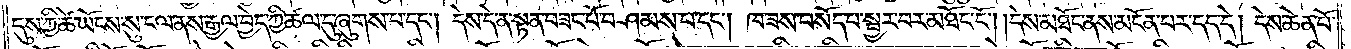དུས་ཀྱི་ཚེ་ཡོངས་སུ་ངལ་ནས་རྒྱལ་བྱེད་ཀྱི་ཚལ་དུ་ཞུགས་པ་དང༌། དེས་དེ་ན་སྟན་བཟང་པོ་བཤམས་པ་དང༌། ཁ་ཟས་བསོད་པ་སྦྱར་བར་མཐོང་ངོ༌། །དེས་མཐོང་ནས་མངོན་པར་དད་དེ། དེས་ཆེན་པོ་
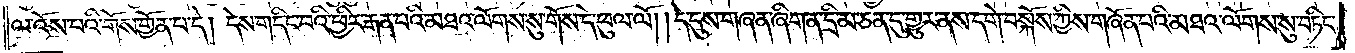ལ་འོས་པའི་གོས་གྱོན་པ་དེ། དེས་གདིང་བའི་ཕྱིར་རྒན་པའི་མཐའ་ལོགས་སུ་གོས་དེ་ཕུལ་ལོ། །དེ་དུས་གཞན་ཞིག་ན་དྲི་མ་ཅན་དུ་གྱུར་ནས་དགེ་བསྐོས་ཀྱིས་གཞོན་པའི་མཐའ་ལོགས་སུ་བཏིང་
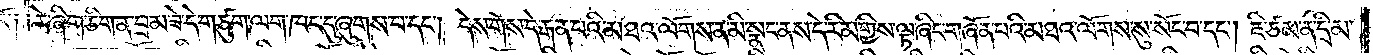ངོ༑ ༑རེ་ཞིག་ཅིག་ན་བྲམ་ཟེ་དེ་གཙུག་ལག་ཁང་དུ་ཞུགས་པ་དང༌། དེས་གོས་དེ་རྒན་པའི་མཐའ་ལོགས་ན་མི་སྣང་ནས་དེ་རིམ་གྱིས་ལྟ་ཞིང་གཞོན་པའི་མཐའ་ལོགས་སུ་སོང་བ་དང༌། ཇི་ཙམ་ན་དྲི་མ་
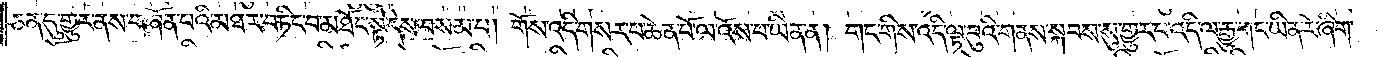ཅན་དུ་གྱུར་ནས་གཞོན་པའི་མཐར་བཏིང་བ་མཐོང་སྟེ་དེས་བསམ་པ། གོས་འདི་གསར་པ་ཆེན་པོ་ལ་འོས་པ་ཡིན་ན། གང་གིས་འདི་ལྟ་བུའི་གནས་སྐབས་སུ་གྱུར་པ་འདི་ལ་རྒྱུ་གང་ཡིན་རེ་ཞིག་
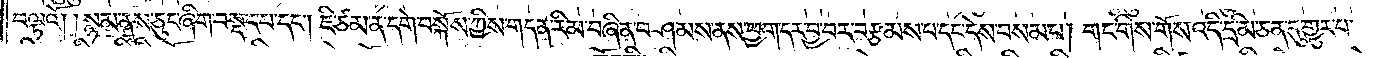བལྟའོ། །སྙམ་ནས་ཅུང་ཞིག་བསྡད་པ་དང༌། ཇི་ཙམ་ན་དགེ་བསྐོས་ཀྱིས་གདན་རིམ་བཞིན་བཤམས་ནས་ཕྱག་དར་བྱ་བར་བརྩམས་པ་དང་དེས་བསམ་པ། གང་གིས་གོས་འདི་དྲི་མ་ཅན་དུ་གྱུར་པ་
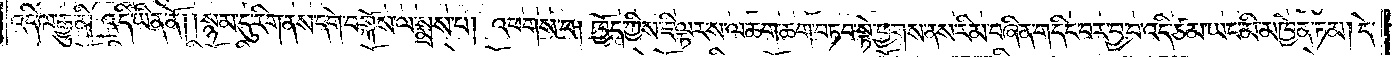འདི་ལ་རྒྱུ་ནི། འདི་ཡིན་ནོ། །སྙམ་དུ་རིག་ནས་དགེ་བསྐོས་ལ་སྨྲས་པ། འཕགས་པ། ཁྱོད་ཀྱིས་ཇི་ལྟར་ས་ལ་ཆག་ཆག་བཏབ་སྟེ་ཕྱགས་ནས་རིམ་བཞིན་གདིང་བར་བྱ་བ་འདི་ཙམ་ཡང་མི་མཁྱེན་ཏམ། དེ་
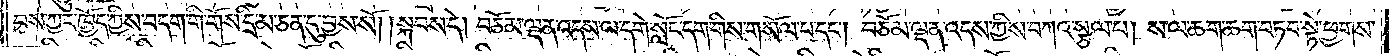བས་ཀྱང་ཁྱོད་ཀྱིས་བདག་གི་གོས་དྲི་མ་ཅན་དུ་བྱས་སོ། །སྐབས་དེ། བཅོམ་ལྡན་འདས་ལ་དགེ་སློང་དག་གིས་གསོལ་པ་དང༌། བཅོམ་ལྡན་འདས་ཀྱིས་བཀའ་སྩལ་པ། ས་ལ་ཆག་ཆག་བཏབ་སྟེ་ཕྱགས་
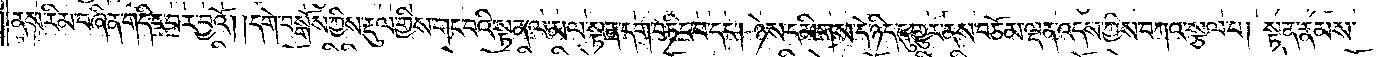ནས་རིམ་བཞིན་གདིང་བར་བྱའོ། །དགེ་བསྒོས་ཀྱིས་རྡུལ་གྱིས་གང་བའི་སྟན་ལ་མལ་སྟན་དག་བཏིང་བ་དང༌། ཉེས་དམིགས་དེ་ཉིད་དུ་གྱུར་ནས་བཅོམ་ལྡན་འདས་ཀྱིས་བཀའ་སྩལ་པ། སྟན་རྣམས་
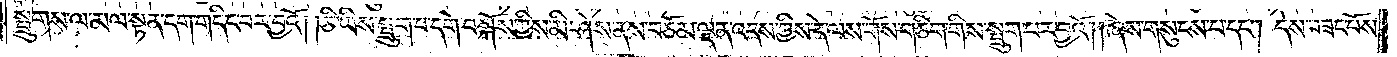སྤྲུགས་ལ་མལ་སྟན་དག་གདིང་བར་བྱའོ། །ཅི་ཡིས་སྤྲུག་པ་དགེ་བསྐོས་ཀྱིས་མི་ཤེས་ནས་བཅོམ་ལྡན་འདས་ཀྱིས་དེ་ལས་གོས་གཅིག་གིས་སྤྲུག་པར་བྱའོ། །ཞེས་གསུངས་པ་དང༌། དེས་བཟང་པོས་
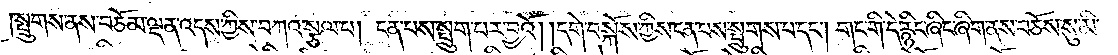སྤྲུགས་ནས་བཅོམ་ལྡན་འདས་ཀྱིས་བཀའ་སྩལ་པ། ངན་པས་སྤྲུག་པར་བྱའོ། །དགེ་བསྐོས་ཀྱིས་ངན་པས་སྤྲུགས་པ་དང༌། གང་གི་དེ་རྙིང་ཞིང་ཞིག་ནས་བཅོས་སུ་མི་
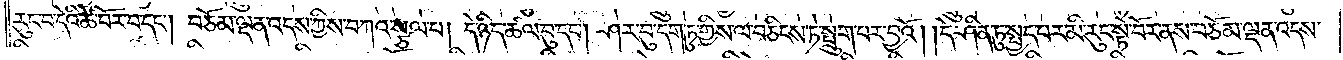རུང་བ་དེའི་ཚེ་བོར་བ་དང༌། བཅོམ་ལྡན་འདས་ཀྱིས་བཀའ་སྩལ་པ། དེ་ཉིད་ཚལ་བུ་དང༌། ཤར་བུ་དག་ཏུ་གྱིས་ལ་བཅིངས་ཏེ་སྤྲུག་པར་བྱའོ། །དེ་ཤིན་ཏུ་སྤྱད་པར་མི་རུང་སྟེ་བོར་ནས་བཅོམ་ལྡན་འདས་
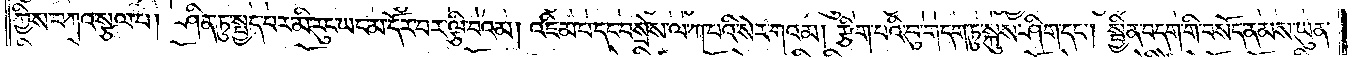ཀྱིས་བཀའ་སྩལ་པ། ཤིན་ཏུ་སྤྱད་པར་མི་རུང་ཡང་མ་དོར་བར་ལྕི་བའམ། འཇིམ་པ་དང་བསྲེས་ལ་ཀ་པའི་སེར་གའམ། རྩིག་པའི་བུ་ག་དག་ཏུ་སྐུས་ཤིག་དང༌། སྦྱིན་བདག་གི་བསོད་ནམས་ཡུན་
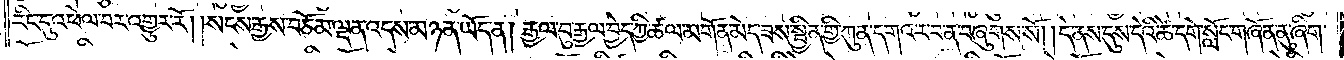རིང་དུ་འཕེལ་བར་འགྱུར་རོ། །སངས་རྒྱས་བཅོམ་ལྡན་འདས་མཉན་ཡོད་ན། རྒྱལ་བུ་རྒྱལ་བྱེད་ཀྱི་ཚལ་མགོན་མེད་ཟས་སྦྱིན་གྱི་ཀུན་དགའ་ར་བ་ན་བཞུགས་སོ། །དེ་ནས་དུས་དེའི་ཚེ་དགེ་སློང་གཞོན་ནུ་ཞིག་
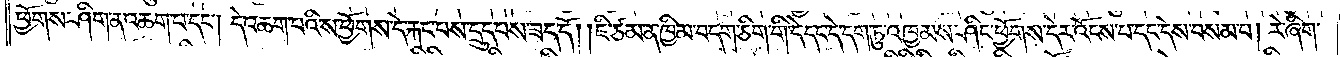ཕྱོགས་ཤིག་ན་འཆག་པ་དང༌། དེ་འཆག་པའི་ས་ཕྱོགས་དེ་རྐང་པས་དྲུད་པས་ཟད་དོ། །ཇི་ཙམ་ན་ཁྱིམ་བདག་ཅིག་གི་དེ་དང་དེ་དག་ཏུ་འཁྱམས་ཤིང་ཕྱོགས་དེར་འོངས་པ་དང་དེས་བསམ་པ། རེ་ཞིག་
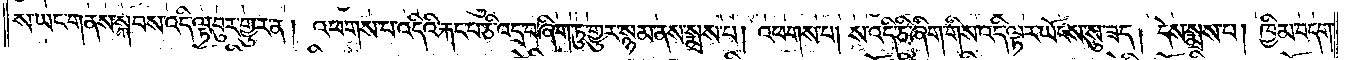ས་ཡང་གནས་སྐབས་འདི་ལྟ་བུར་གྱུར་ན། འཕགས་པ་འདིའི་རྐང་པ་ཅི་འདྲ་བ་ཞིག་ཏུ་གྱུར་སྙམ་ནས་སྨྲས་པ། འཕགས་པ། ས་འདི་ཅི་ཞིག་གིས་འདི་ལྟར་ཡོངས་སུ་ཟད། དེས་སྨྲས་པ། ཁྱིམ་བདག་
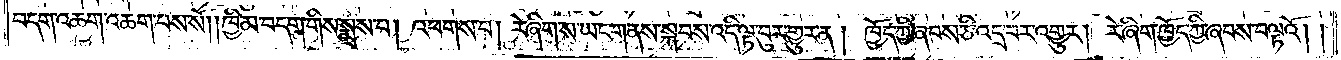བདག་འཆག་འཆག་པས་སོ། །ཁྱིམ་བདག་གིས་སྨྲས་པ། འཕགས་པ། རེ་ཞིག་ས་ཡང་གནས་སྐབས་འདི་ལྟ་བུར་གྱུར་ན། ཁྱོད་ཀྱི་ཞབས་ཅི་འདྲ་བར་འགྱུར། རེ་ཞིག་ཁྱོད་ཀྱི་ཞབས་བལྟའོ། །
